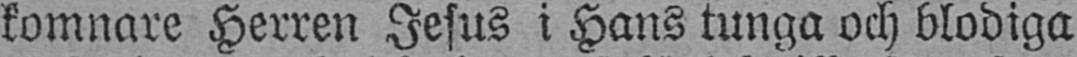komnare Herren Jesus i Hans tunga och blodiga
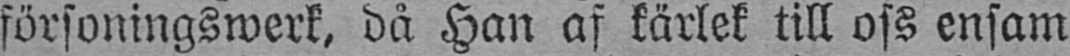försoningswerk, då Han af kärlek till oss ensam
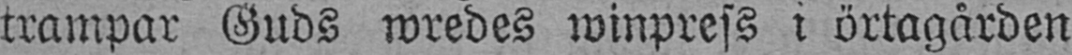trampar Guds wredes winpress i örtagården
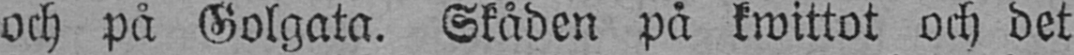och på Golgata. Skåden på kwittot och det
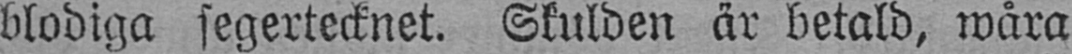blodiga segertecknet. Skulden är betald, wåra
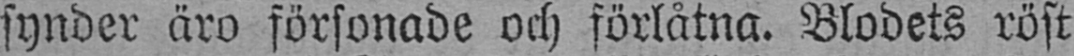synder äro försonade och förlåtna. Blodets röst
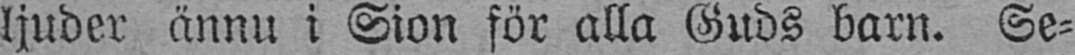ljuder ännu i Sion för alla Guds barn. Se-
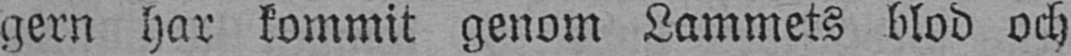gern har kommit genom Lammets blod och
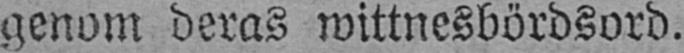genom deras wittnesbördsord.
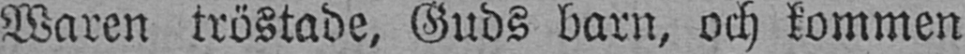Waren tröstade, Guds barn, och kommen
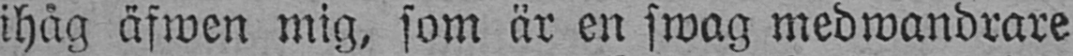ihåg äfwen mig, som är en swag medwandrare
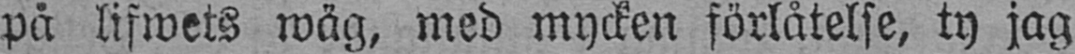på lifwets wäg, med mycken förlåtelse, ty jag
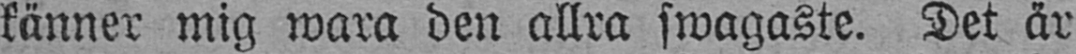känner mig wara den allra swagaste. Det är
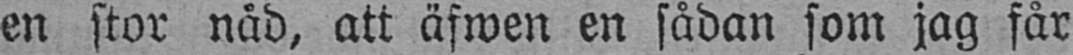en stor nåd, att äfwen en sådan som jag får
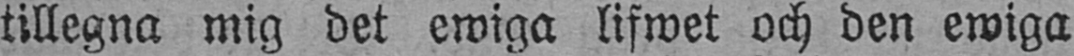tillegna mig det ewiga lifwet och den ewiga
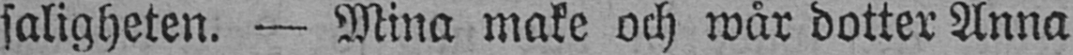saligheten. — Mina make och wår dotter Anna
